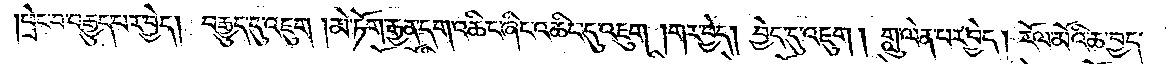ཕྲེང་བ་བརྒྱུད་པར་བྱེད། བརྒྱུད་དུ་འཇུག །མེ་ཏོག་རྒྱན་དག་འཆིང་ཞིང་འཆིང་དུ་འཇུག །གར་བྱེད། བྱེད་དུ་འཇུག །གླུ་ལེན་པར་བྱེད། རོལ་མོའི་ཆ་བྱད་
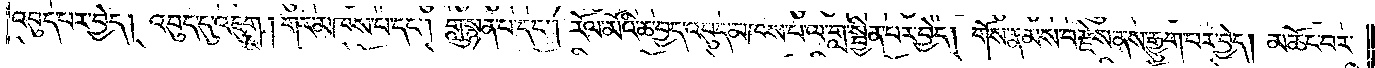འབུད་པར་བྱེད། འབུད་དུ་འཇུག །གར་མཁས་པ་དང༌། གླུ་སྙན་པ་དང༌། རོལ་མོའི་ཆ་བྱད་འབུད་མཁས་པ་ལ་གླ་སྦྱིན་པར་བྱེད། གོས་རྣམས་བརྫེས་ནས་རྒྱུག་པར་བྱེད། མཆོང་བར་
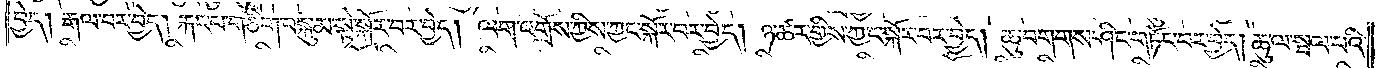བྱེད། རྒལ་བར་བྱེད། རྐང་པ་གཅིག་བསྐུམ་སྟེ་སྐོར་བར་བྱེད། ལག་འགྲོས་ཀྱིས་ཀྱང་སྐོར་བར་བྱེད། ཉ་ཚར་གྱིས་ཀྱང་སྐོར་བར་བྱེད། ཆུ་བགགས་ཤིང་གཏོང་བར་བྱེད། ཆུ་ལ་སྦལ་པའི་
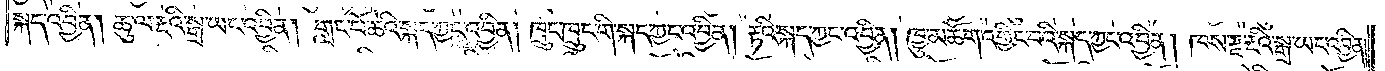སྐད་འབྱིན། ཆུ་ལ་རྔའི་སྒྲ་ཡང་འབྱིན། གླང་པོ་ཆེའི་སྐད་ཀྱང་འབྱིན། ཁྲུང་ཁྲུང་གི་སྐད་ཀྱང་འབྱིན། རྟའི་སྐད་ཀྱང་འབྱིན། ཁྱུ་མཆོག་འགྱིང་པའི་སྐད་ཀྱང་འབྱིན། ཁས་རྫ་རྔའི་སྒྲ་ཡང་འབྱིན།
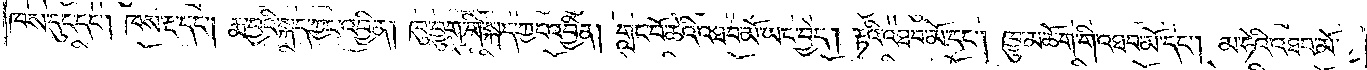ཁས་དུང་དང༌། ཁས་རྔ་དང༌། རྨ་བྱའི་སྐད་ཀྱང་འབྱིན། ཁུ་བྱུག་གི་སྐད་ཀྱང་འབྱིན། གླང་པོ་ཆེའི་འཐབ་མོ་ཡང་བྱེད། རྟའི་འཐབ་མོ་དང༌། ཁྱུ་མཆོག་གི་འཐབ་མོ་དང༌། མ་ཧེའི་འཐབ་མོ་
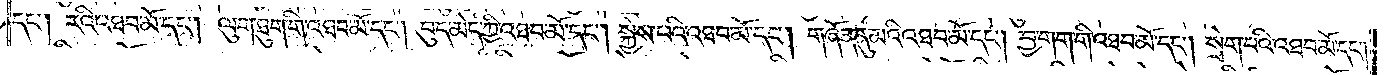དང༌། རའི་འཐབ་མོ་དང༌། ལུག་ཐུག་གི་འཐབ་མོ་དང༌། བུད་མེད་ཀྱི་འཐབ་མོ་དང༌། སྐྱེས་པའི་འཐབ་མོ་དང༌། གཞོན་ནུ་མའི་འཐབ་མོ་དང༌། བྱ་གག་གི་འཐབ་མོ་དང༌། སྲེག་པའི་འཐབ་མོ་དང༌།
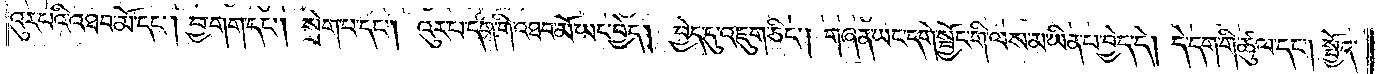འུར་པའི་འཐབ་མོ་དང༌། བྱ་གག་དང༌། སྲེག་པ་དང༌། འུར་པ་དག་གི་འཐབ་མོ་ཡང་བྱེད། བྱེད་དུ་འཇུག་ཅིང༌། གཞན་ཡང་དགེ་སྦྱོང་གི་ལས་མ་ཡིན་པ་བྱེད་དེ། དེ་དག་གི་ཚུལ་དང༌། སྤྱོད་
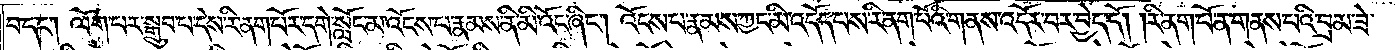པ་དང༌། ལོག་པར་སྒྲུབ་པ་དེས་རི་ནག་པོར་དགེ་སློང་མ་འོངས་པ་རྣམས་ནི་མི་འོང་ཞིང༌། འོངས་པ་རྣམས་ཀྱང་མི་འདོད་པས་རི་ནག་པོའི་གནས་འདོར་བར་བྱེད་དོ། །རི་ནག་པོ་ན་གནས་པའི་བྲམ་ཟེ་
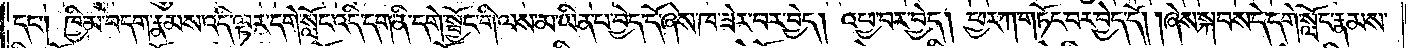དང༌། ཁྱིམ་བདག་རྣམས་འདི་ལྟར་དགེ་སློང་འདི་དག་ནི་དགེ་སྦྱོང་གི་ལས་མ་ཡིན་པ་བྱེད་དོ་ཞེས་ཁ་ཟེར་བར་བྱེད། འཕྱ་བར་བྱེད། ཕྱར་ཀ་གཏོང་བར་བྱེད་དོ། །ཞེས་སྐབས་དེ་དགེ་སློང་རྣམས་
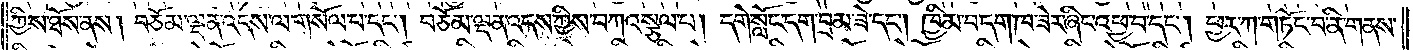ཀྱིས་ཐོས་ནས། བཅོམ་ལྡན་འདས་ལ་གསོལ་པ་དང༌། བཅོམ་ལྡན་འདས་ཀྱིས་བཀའ་སྩལ་པ། དགེ་སློང་དག་བྲམ་ཟེ་དང༌། ཁྱིམ་བདག་ཁ་ཟེར་ཞིང་འཕྱ་བ་དང༌། ཕྱར་ཀ་གཏོང་བ་ནི་གནས་
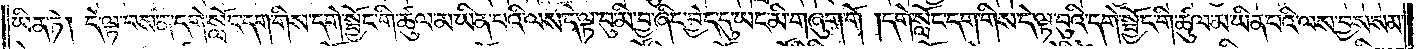ཡིན་ཏེ། དེ་ལྟ་བས་ན་དགེ་སློང་དག་གིས་དགེ་སྦྱོང་གི་ཚུལ་མ་ཡིན་པའི་ལས་དེ་ལྟ་བུ་མི་བྱ་ཞིང་བྱེད་དུ་ཡང་མི་གཞུག་གོ། །དགེ་སློང་དག་གིས་དེ་ལྟ་བུའི་དགེ་སྦྱོང་གི་ཚུལ་མ་ཡིན་པའི་ལས་བྱས་སམ་
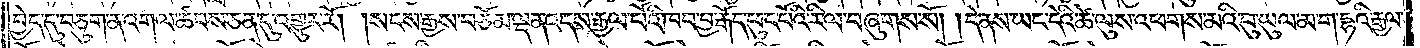བྱེད་དུ་བཅུག་ན་འགལ་ཚབས་ཅན་དུ་འགྱུར་རོ། །སངས་རྒྱས་བཅོམ་ལྡན་འདས་རྒྱལ་པོའི་ཁབ་བྱ་རྒོད་ཕུང་པོའི་རི་ལ་བཞུགས་སོ། །དེ་ནས་ཡང་དེའི་ཚེ་ལུས་འཕགས་མའི་བུ་ཡུལ་མ་ག་དྷའི་རྒྱལ་
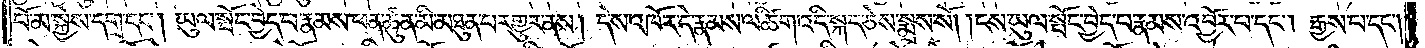པོ་མ་སྐྱེས་དགྲ་དང༌། ཡུལ་སྤོང་བྱེད་པ་རྣམས་ཕན་ཚུན་མི་མཐུན་པར་གྱུར་ནས། དེས་འཁོར་དེ་རྣམས་ལ་ཚིག་འདི་སྐད་ཅེས་སྨྲས་སོ། །ངས་ཡུལ་སྤོང་བྱེད་བ་རྣམས་འབྱོར་པ་དང༌། རྒྱས་པ་དང༌།
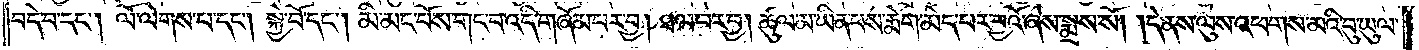བདེ་བ་དང༌། ལོ་ལེགས་པ་དང༌། སྐྱེ་བོ་དང༌། མི་མང་པོས་གང་བ་འདི་གཞོམ་པར་བྱ། ཐལ་བར་བྱ། ཚུལ་མ་ཡིན་པས་རྨེག་མེད་པར་བྱའོ་ཞེས་སྨྲས་སོ། །དེ་ནས་ལུས་འཕགས་མའི་བུ་ཡུལ་
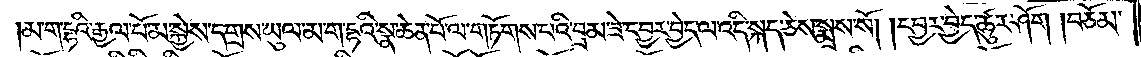མ་ག་དྷའི་རྒྱལ་པོ་མ་སྐྱེས་དགྲས་ཡུལ་མ་ག་དྷའི་སྣ་ཆེན་པོ་ལ་གཏོགས་པའི་བྲམ་ཟེ་དབྱར་བྱེད་ལ་འདི་སྐད་ཅེས་སྨྲས་སོ། །དབྱར་བྱེད་ཚུར་ཤོག །བཅོམ་
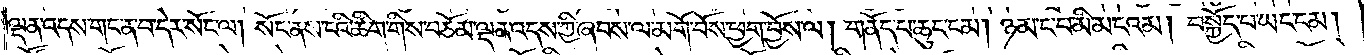ལྡན་འདས་གང་ན་བ་དེར་སོང་ལ། སོང་ནས་ངའི་ཚིག་གིས་བཅོམ་ལྡན་འདས་ཀྱི་ཞབས་ལ་མགོ་བོས་ཕྱག་བྱོས་ལ། གནོད་པ་ཆུང་ངམ། ཉམ་ང་བ་མི་མ་ངའམ། བསྐྱོད་པ་ཡང་ངམ།
